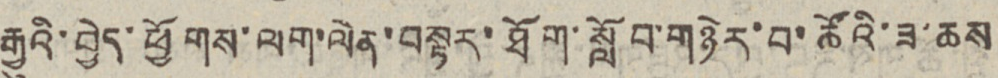རྒྱུའི་བྱེད་ཕྱོགས་ལག་ལེན་བསྟར་ཐོག་སློབ་གཉེར་བ་ཚོའི་ཟ་ཆས
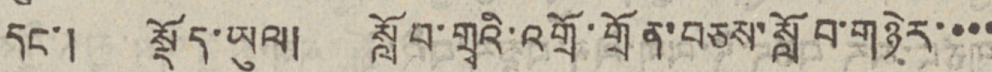དང་། སྡོད་ཡུལ། སློབ་གྲྭའི་འགྲོ་གྲོན་བཅས་སློབ་གཉེར་་་་
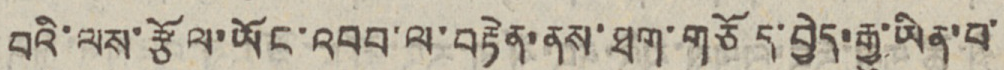བའི་ལས་རྩོལ་ཡོང་འབབ་ལ་བརྟེན་ནས་ཐག་གཅོད་བྱེད་རྒྱུ་ཡིན་པ་
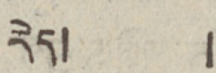རེད། །
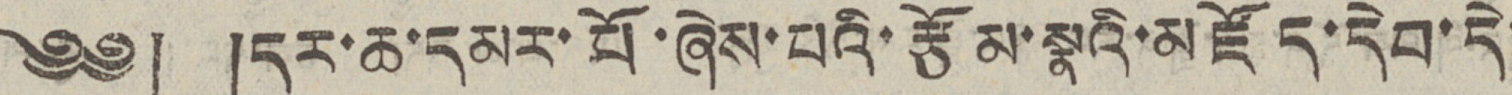༄༅། །དར་ཆ་དམར་པོ་ཞེས་པའི་རྩོམ་སྣའི་མཛོད་དེབ་དེ་
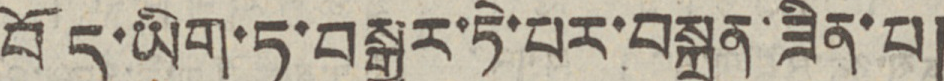བོད་ཡིག་ཏུ་བསྒྱུར་ཏེ་པར་བསྐྲུན་ཟིན་པ།
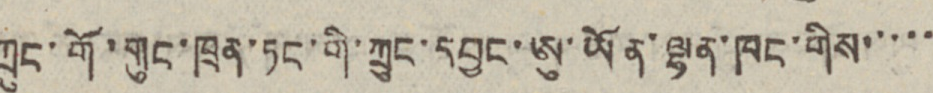ཀྲུང་གོ་གུང་ཁྲན་ཏང་གི་ཀྲུང་དབྱང་ཨུ་ཡོན་ལྷན་ཁང་གིས་་་་་
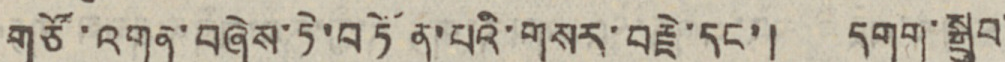གཙོ་འགན་བཞེས་ཏེ་བཏོན་པའི་གསར་བརྗེ་དང་། དགག་སྒྲུབ་
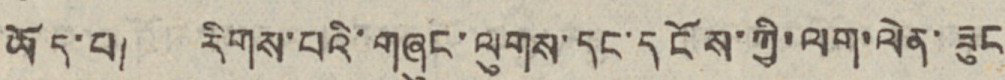ཡོད་པ། རིགས་པའི་གཞུང་ལུགས་དང་དངོས་ཀྱི་ལག་ལེན་ཟུང
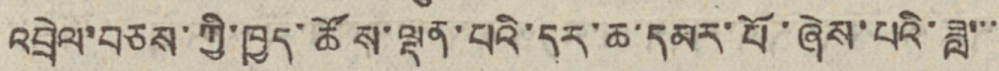འབྲེལ་བཅས་ཀྱི་ཁྱད་ཚོས་ལྡན་པའི་དར་ཆ་དམར་པོ་ཞེས་པའི་ཟླ་་་་
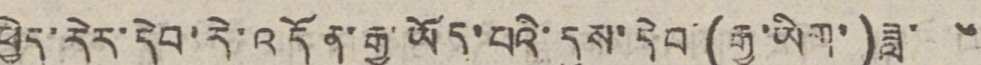ཕྱེད་རེར་དེབ་རེ་འདོན་རྒྱུ་ཡོད་པའི་དུས་དེབ་(རྒྱ་ཡིག་)ཟླ་ ༦
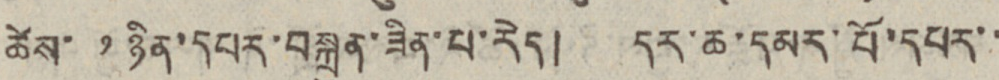ཚེས་ ༡ ཉིན་དབར་བསྐྲུན་ཟིན་པ་རེད། དར་ཆ་དམར་པོ་དཔར་་
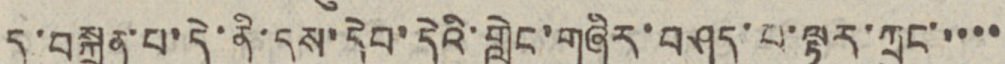དུ་བསྐྲུན་པ་དེ་ནི་དུས་དེབ་དེའི་གླེང་གཞིར་བཤད་པ་ལྟར་ཀྲུང་་་་་
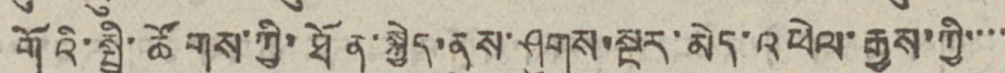གོའི་སྤྱི་ཚོགས་ཀྱི་ཐོན་སྐྱེད་ནུས་ཤུགས་སྔར་མེད་འཕེལ་རྒྱས་ཀྱི་་་་
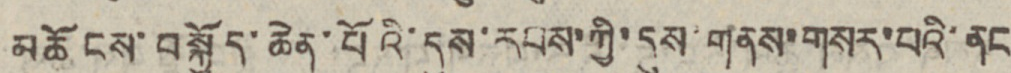མཆོངས་བསྐྱོད་ཆེན་པོའི་དུས་རབས་ཀྱི་དུས་གནས་གསར་པའི་ནང
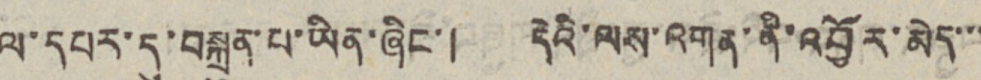ལ་དཔར་དུ་བསྐྲུན་པ་ཡིན་ཞིང་། དེའི་ལས་འགན་ནི་འབྱོར་མེད་་་
